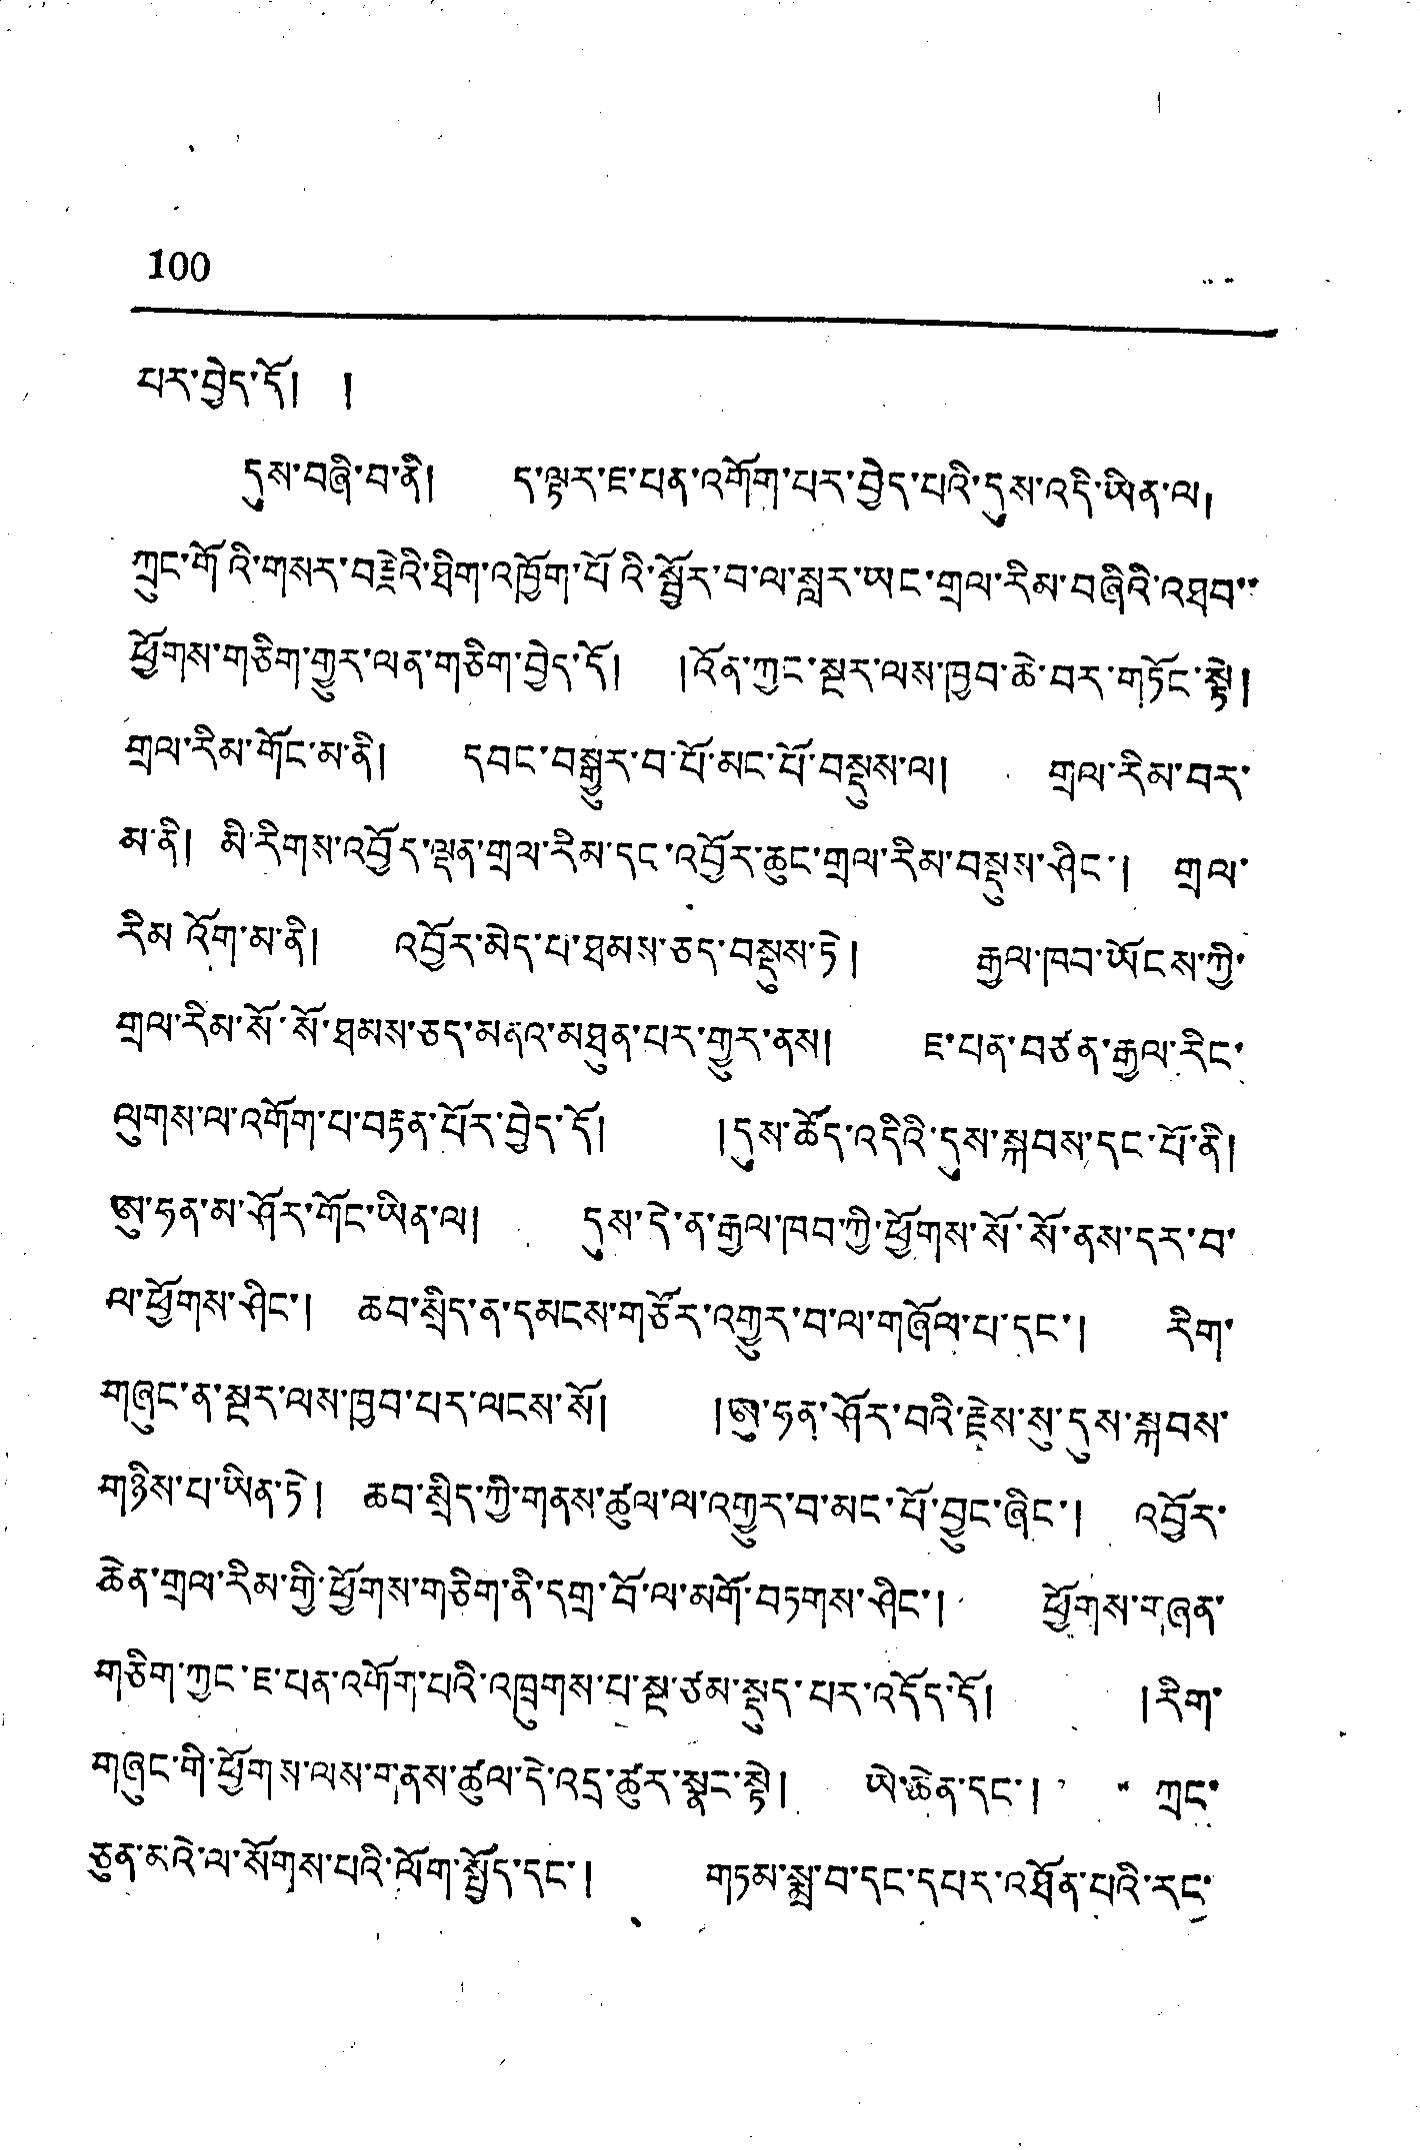100
པར་བྱེད་དོ། །
དུས་བཞི་བ་ནི། ད་ལྟར་ཇ་པན་འགོག་པར་བྱེད་པའི་དུས་འདི་ཡིན་ལ།
ཀྲུང་གོའི་གསར་བརྗེའི་ཐིག་འཁྱོག་པོའི་སྦྱོར་བ་ལ་སླར་ཡང་གྲལ་རིམ་བཞིའི་འཐབ་་
ཕྱོགས་གཅིག་གྱུར་ལན་གཅིག་བྱེད་དོ། །འོན་ཀྱང་སྔར་ལས་ཁྱབ་ཆེ་བར་གཏོང་སྟེ།
གྲལ་རིམ་གོང་མ་ནི། དབང་བསྒྱུར་བ་པོ་མང་པོ་བསྡུས་ལ། གྲལ་རིམ་བར་
མ་ནི། མི་རིགས་འབྱོར་ལྡན་གྲལ་རིམ་དང་འབྱོར་ཆུང་གྲལ་རིམ་བསྡུས་ཤིང་། གྲལ་
རིམ འོག་མ་ནི། འབྱོར་མེད་པ་ཐམས་ཅད་བསྡུས་ཏེ། རྒྱལ་ཁབ་ཡོངས་ཀྱི་
གྲལ་རིམ་སོ་སོ་ཐམས་ཅད་མནའ་མཐུན་པར་གྱུར་ནས། ཇ་པན་བཙན་རྒྱལ་རིང་
ལུགས་ལ་འགོག་པ་བརྟན་པོར་བྱེད་དོ། །དུས་ཚོད་འདིའི་དུས་སྐབས་དང་པོ་ནི།
ཨུ་ཧན་མ་ཤོར་གོང་ཡིན་ལ། དུས་དེ་ན་རྒྱལ་ཁབ་ཀྱི་ཕྱོགས་སོ་སོ་ནས་དར་བ་
ལ་ཕྱོགས་ཤིང་། ཆབ་སྲིད་ན་དམངས་གཙོར་འགྱུར་བ་ལ་གཞོལ་པ་དང་། རིག་
གཞུང་ན་སྔར་ལས་ཁྱབ་པར་ལངས་སོ། །ཨུ་ཧན་ཤོར་བའི་རྗེས་སུ་དུས་སྐབས་
གཉིས་པ་ཡིན་ཏེ། ཆབ་སྲིད་ཀྱི་གནས་ཚུལ་ལ་འགྱུར་བ་མང་པོ་བྱུང་ཞིང་། འབྱོར་
ཆེན་གྲལ་རིམ་གྱི་ཕྱོགས་གཅིག་ནི་དགྲ་བོ་ལ་མགོ་བཏགས་ཤིང་། ཕྱོགས་གཞན་
གཅིག་ཀྱང་ཇ་པན་འགོག་པའི་འཁྲུགས་པ་སྔ་ཙམ་སྡད་པར་འདོད་དོ། །རིག་
གཞུང་གི་ཕྱོགས་ལས་གནས་ཚུལ་དེ་འདྲ་ཚུར་སྣང་སྟེ། ཡེ་ཆེན་དང་། ཀྲང་
ཅུན་མའེ་ལ་སོགས་པའི་ལོག་སྤྱོད་དང་། གཏམ་སྨྲ་བ་དང་དཔར་འཐོན་པའི་རང་
